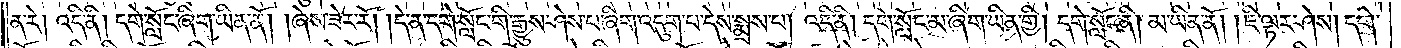ན་རེ། འདི་ནི། དགེ་སློང་ཞིག་ཡིན་ནོ། །ཞེས་ཟེར་རོ། །དེ་ན་དགེ་སློང་གི་རྒྱུས་ཤེས་པ་ཞིག་འདུག་པ་དེས་སྨྲས་པ། འདི་ནི། དགེ་སློང་མ་ཞིག་ཡིན་གྱི། དགེ་སློང་ནི། མ་ཡིན་ནོ། །ཇི་ལྟར་ཤེས། དགེ་
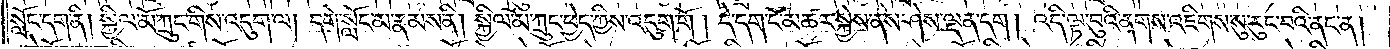སློང་དག་ནི། སྐྱིལ་མོ་ཀྲུང་གིས་འདུག་ལ། དགེ་སློང་མ་རྣམས་ནི། སྐྱིལ་མོ་ཀྲུང་ཕྱེད་ཀྱིས་འདུག་གོ། དེ་དག་ངོ་མཚར་སྐྱེས་ནས་ཤེས་ལྡན་དག། འདི་ལྟ་བུའི་ནགས་འཇིགས་སུ་རུང་བའི་ནང་ན།
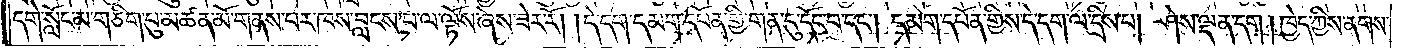དགེ་སློང་མ་གཅིག་པུ་མཚན་མོ་གནས་པར་ཁས་བླངས་པ་ལ་ལྟོས་ཞེས་ཟེར་རོ། །དེ་དག་དམག་དཔོན་གྱི་གན་དུ་དོང་བ་དང༌། དམག་དཔོན་གྱིས་དེ་དག་ལ་དྲིས་པ། ཤེས་ལྡན་དག། ཁྱེད་ཀྱིས་ནགས་
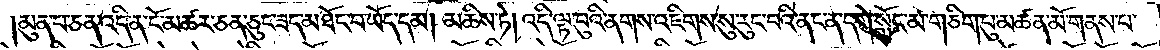མུན་པ་ཅན་འདི་ན་ངོ་མཚར་ཅན་ཅུང་ཟད་མཐོང་བ་ཡོད་དམ། མཆིས་ཏེ། འདི་ལྟ་བུའི་ནགས་འཇིགས་སུ་རུང་བའི་ནང་ན་དགེ་སློང་མ་གཅིག་པུ་མཚན་མོ་གནས་པ་
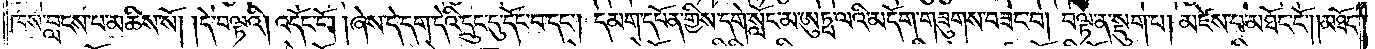ཁས་བླངས་པ་མཆིས་སོ། །དེ་བལྟའི། །འདོང་ངོ༌། །ཞེས་དེ་དག་དེའི་དྲུང་དུ་དོང་བ་དང༌། དམག་དཔོན་གྱིས་དགེ་སློང་མ་ཨུཏྤ་ལའི་མདོག་གཟུགས་བཟང་བ། བལྟ་ན་སྡུག་པ། མཛེས་པ་མཐོང་ངོ༌། །མཐོང་
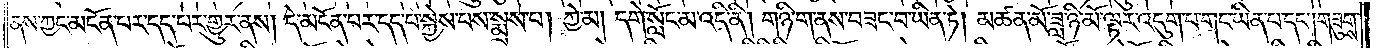ནས་ཀྱང་མངོན་པར་དད་པར་གྱུར་ནས། དེ་མངོན་པར་དད་པ་སྐྱེས་པས་སྨྲས་པ། ཀྱེ་མ། དགེ་སློང་མ་འདི་ནི། གཉི་ག་ནས་བཟང་བ་ཡིན་ཏེ། མཚན་མོ་ཟླ་ཉི་མོ་ལྟར་འདུག་པ་གང་ཡིན་པ་དང༌། གཟུགས་
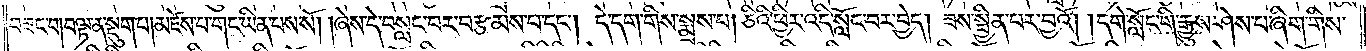བཟང་བ།བལྟ་ན་སྡུག་པ།མཛེས་པ་གང་ཡིན་པས་སོ། །ཞེས་དེ་བསླང་བར་བརྩམས་པ་དང༌། དེ་དག་གིས་སྨྲས་པ། ཅིའི་ཕྱིར་འདི་སློང་བར་བྱེད། ཟས་སྦྱིན་པར་བྱའོ། །དགེ་སློང་གི་རྒྱུས་ཤེས་པ་ཞིག་གིས་
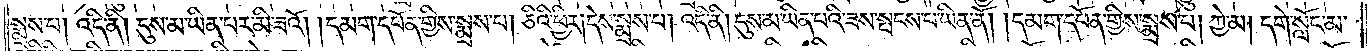སྨྲས་པ། འདི་ནི། དུས་མ་ཡིན་པར་མི་ཟའོ། །དམག་དཔོན་གྱིས་སྨྲས་པ། ཅིའི་ཕྱིར། དེས་སྨྲས་པ། འདི་ནི། དུས་མ་ཡིན་པའི་ཟས་སྤངས་པ་ཡིན་ནོ། །དམག་དཔོན་གྱིས་སྨྲས་པ། ཀྱེ་མ། དགེ་སློང་མ་
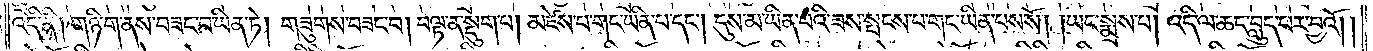འདི་ནི། གཉི་ག་ནས་བཟང་བ་ཡིན་ཏེ། གཟུགས་བཟང་བ། བལྟ་ན་སྡུག་པ། མཛེས་པ་གང་ཡིན་པ་དང༌། དུས་མ་ཡིན་པའི་ཟས་སྤངས་པ་གང་ཡིན་པས་སོ། །ཡང་སྨྲས་པ། འདི་ལ་ཆང་བླུད་པར་བྱའོ། །
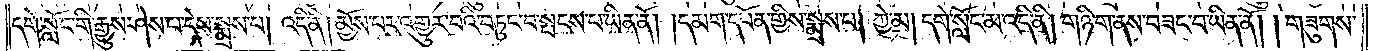དགེ་སློང་གི་རྒྱུས་ཤེས་པ་དེས་སྨྲས་པ། འདི་ནི། མྱོས་པར་འགྱུར་བའི་བཏུང་བ་སྤངས་པ་ཡིན་ནོ། །དམག་དཔོན་གྱིས་སྨྲས་པ། ཀྱེ་མ། དགེ་སློང་མ་འདི་ནི། གཉི་ག་ནས་བཟང་བ་ཡིན་ནོ། གཟུགས་
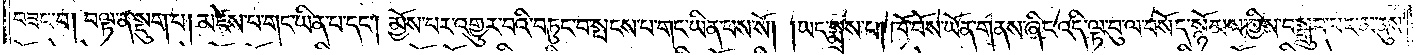བཟང་བ། བལྟ་ན་སྡུག་པ། མཛེས་པ་གང་ཡིན་པ་དང༌། མྱོས་པར་འགྱུར་བའི་བཏུང་བ་སྤངས་པ་གང་ཡིན་པས་སོ། །ཡང་སྨྲས་པ། ཁོ་བོས་ཡོན་གནས་ཞིང་འདི་ལྟ་བུ་ལ་བསོད་སྙོམས་ཀྱིས་བསྒྲུབ་པར་མ་ནུས་
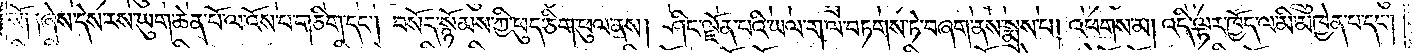སོ༏ ༏ཞེས་དེས་རས་ཡུག་ཆེན་པོ་ལ་འོས་པ་གཅིག་དང༌། བསོད་སྙོམས་ཀྱི་ཕུད་ཅིག་ཕུལ་ནས། ཤིང་ལྗོན་པའི་ཡལ་ག་ལ་བཏགས་ཏེ་བཞག་ནས་སྨྲས་པ། འཕགས་མ། འདི་ལྟར་ཁྱོད་ལ་མི་མཁྱེན་པ་དང༌།
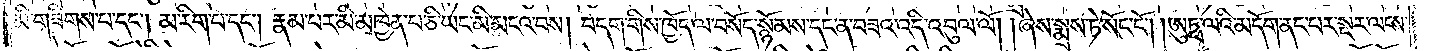མི་གཟིགས་པ་དང༌། མ་རིག་པ་དང༌། རྣམ་པར་མི་མཁྱེན་པ་ཅི་ཡང་མི་མངའ་བས། བདག་གིས་ཁྱོད་ལ་བསོད་སྙོམས་དང་ན་བཟའ་འདི་འབུལ་ལོ། །ཞེས་སྨྲས་ཏེ་སོང་ངོ༌། །ཨུཏྤ་ལའི་མདོག་ནང་པར་སྔར་ལངས་
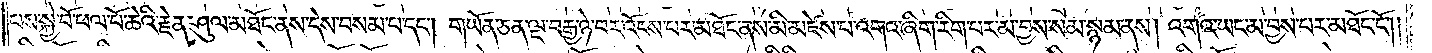པས་སྐྱེ་བོ་ཕལ་པོ་ཆེའི་རྗེན་ཤུལ་མཐོང་ནས་དེས་བསམ་པ་དང༌། གཡོན་ཅན་ལྔ་བརྒྱ་ཉེ་བར་འོངས་པར་མཐོང་ནས་མི་མཛེས་པ་འགའ་ཞིག་རིག་པར་མ་བྱས་སམ་སྙམ་ནས། འགའ་ཡང་མ་བྱས་པར་མཐོང་ངོ༌༎
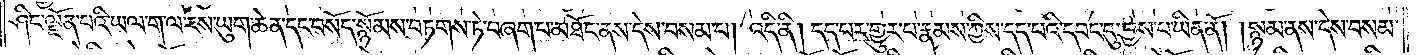ཤིང་ལྗོན་པའི་ཡལ་ག་ལ་རས་ཡུག་ཆེན་དང་བསོད་སྙོམས་བཏགས་ཏེ་བཞག་པ་མཐོང་ནས་དེས་བསམ་པ། འདི་ནི། དད་པར་གྱུར་པ་རྣམས་ཀྱིས་དད་པའི་དབང་དུ་བྱས་པ་ཡིན་ནོ། །སྙམ་ནས་དེས་བསམ་
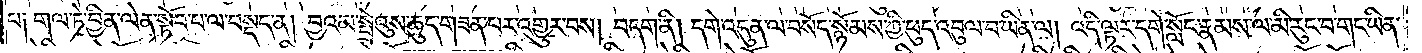པ༏ གལ་ཏེ་བྱིན་ལེན་སྟོབ་པ་ལ་བསྡད་ན། བྱའམ་སྤྲེའུས་ཆུད་གཟན་པར་འགྱུར་བས། བདག་ནི། དགེ་འདུན་ལ་བསོད་སྙོམས་ཀྱི་ཕུད་འབུལ་བ་ཡིན་ལ། འདི་ལྟར་དགེ་སློང་རྣམས་ལ་མི་རུང་བ་གང་ཡིན་
